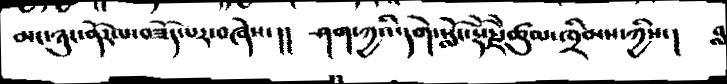མང་ཉུང་ནོར་པ་བཟོད་པར་བཞེས་།།  ཤག་ཀྱའི་དགེ་སློང་རྡོ་རྗེ་ཚུལ་ཁྲིམས་ཀྱིས་།    བླ་
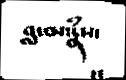བླ་མ་རྣཾས་
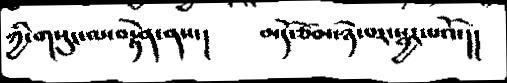ཀྱི་གསུང་ལ་བརྟེན་ནས་།    མདོ་ཙམ་ཉེ་པར་སྦྱར་པའོ་།།
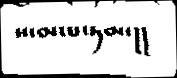ས་མ་པ་ཏམ་།།
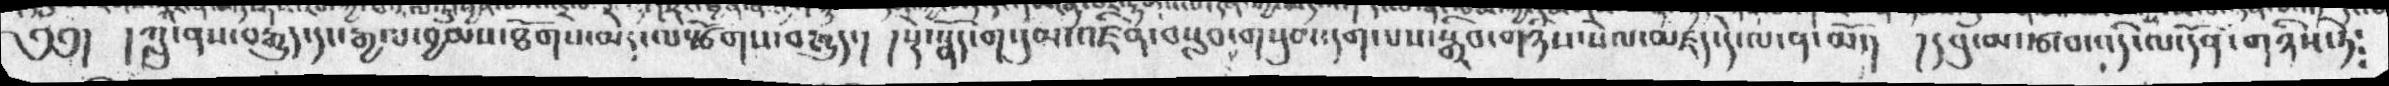༄༅།  །ཀླུ་ནས་བརྒྱུད་དང་རྒྱལ་བྱམས་ཐོགས་མེད་ལ་སྩོགས་བརྒྱུད་།  །སྡེ་སྣོད་གསུམ་འཛིན་བསླབ་གསུམ་དག་པས་སྒྲིབ་གཉིས་སེལ་མཛད་དེ་ལ་ན་མོ་།   ། དབུ་མ་རྩ་བ་འདི་ལ་དོན་གཉིས་ཏེ༴
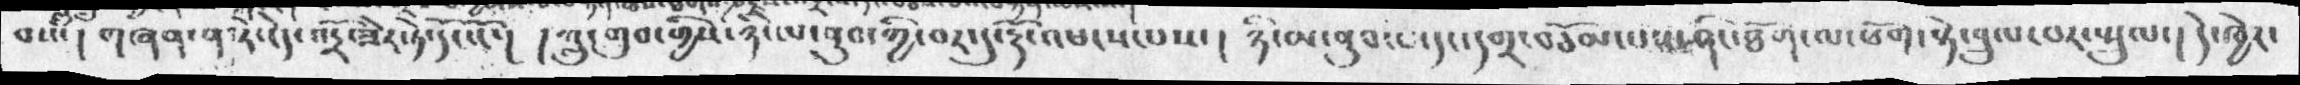བས།   གཞན་ན་རེ་ངེད་འདྲོ་ཟེར་ཏེ་དོང་ངོ་།    །ཀླུ་གྲུབ་གྱིས་ཉི་མ་ནུབ་ཀྱི་བར་དུ་རྟོ་འཕངས་པས་།  ཉི་མ་ནུབ་པ་དང་དགྲ་བཅོམ་པས་ཤིང་ཐོག་ཕོག་སྟེ་བྲུལ་པར་སྤྲུལ་།  དེ་ཁྱེར་
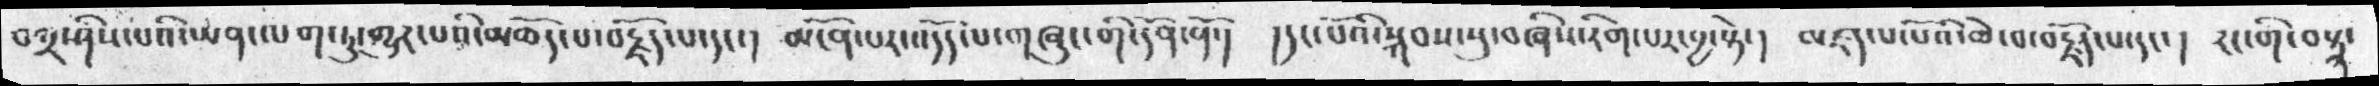བཀྲ་ཤིས་པའི་ཡན་ལག་ཏུ་གྱུར་པའི་མཆོད་པ་བརྗོད་པ་དང་།    མངོན་པར་འདོད་པ་གཞུང་གི་དོན་ནོ་།    །དང་པོའི་སྐབས་སུ་བཞིས་རིག་པར་བྱ་སྟེ་།  མཛད་པ་པོའི་ཆེ་བ་བརྗོད་པ་དང་།   རང་གི་བསྟན་
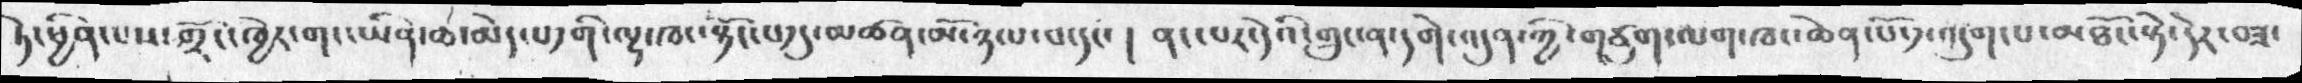ཏེ་ཕྱིན་པས་གྲོང་ཁྱེར་གང་ཡཡིན་ཆ་མེད་པ་དགི་ལྷ་ཁང་སྟོང་པ་དུ་མཚན་མོ་ཉ་པ་དང་ ། ནང་པར་དེའི་གྲུང་ན་དགེ་འདུན་ཀྱི་གཙུག་ལག་ཁང་ཆེན་པོ་ད་འདུག་པ་མཐོང་སྟེ་དེར་བཟང་
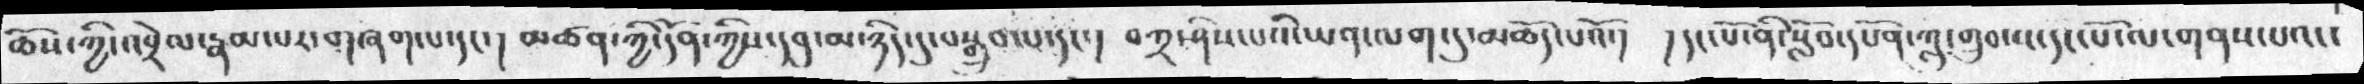ཆོས་ཀྱི་འབྲེལ་རྣམ་པར་གཞག་པ་དང། མཚན་གྱི་དོན་ཀྱིས་དབུ་མ་ཉིད་དུ་བསྒྲུབ་པ་དང་། བཀྲ་ཤིས་པའི་ཡན་ལག་དུ་མཆོད་པའོ། དང་པོ་ནི་སློབ་དཔོན་ཀླུ་གྲུབ་པ་དང་པོ་
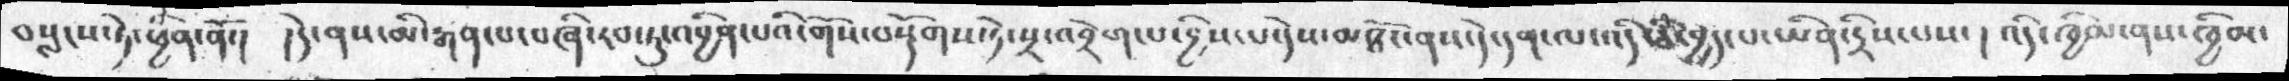བསླངས་ཏེ་ཕྱིན་ནོ། དེར་ནས་མི་རྒན་པ་བཞི་རབ་ཏུ་འབྱིན་པའི་གོས་བསྟོགས་ཏེ་སྲ་འབྲེག་པ་བྱིས་པ་དེས་མཐོང་ནས་དེ་དག་ལ་འདི་མི་བྱེད་པ་ཡིན་དྲིས་པས། འདི་ཁྱིམ་ནས་ཁྱིམ་
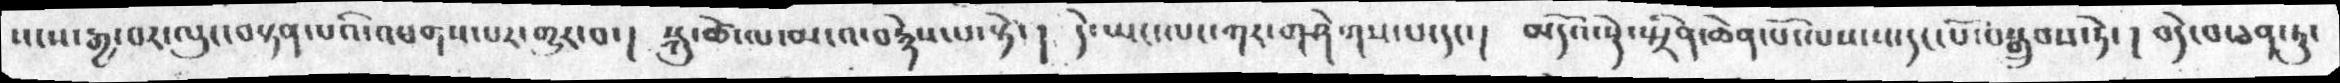སངས་རྒྱ་བར་ལུང་བསྟན་པའི་འཕགས་པར་གྱུར་པ། སྐུ་ཚེ་ལ་མངའ་བརྙེས་པ་སྟེ། དེ་ཡང་ལང་ཀར་གཤེགས་པ་དང། མདོ་སྟེ་སྤྲིན་ཆེན་པོ་ལས་ས་དང་པོ་བསྒྲུབས་ཏེ། བདེ་བ་ཅན་ཏུ་
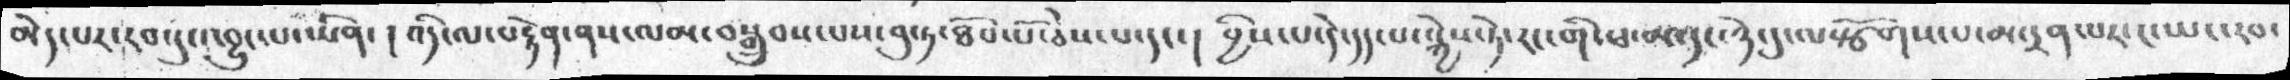མེད་པར་རབ་ཏུ་འབྱུང་བ་ཡིན། འདི་ལ་བསྟེན་ནས་ལམ་བསྒྲུབས་པས་བུ་ཏ་ཐོབ་པོ་ཅེས་པ་དང་། བྱིས་པ་དེ་དད་པ་སྐྱེས་ཏེ་རང་གི་ཕ་མ་དང་ཉེ་དུ་ལས་སྩོགས་པ་མ་དྲན་པར་ང་ཡང་རབ་
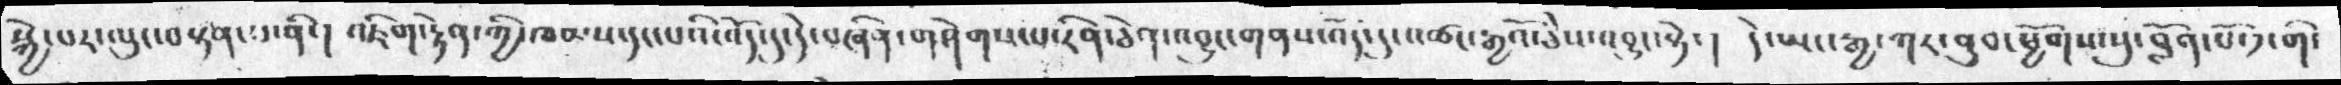སྐྱེ་པར་ལུང་བསྟན་པ་ནི་།  འཇིག་རྟེན་ཀྱི་ཁམས་དང་པའི་འོད་དུ་དེ་བཞིན་གཤེགས་པ་རིན་ཅེན་འབྱུང་གནས་འོད་དུ་འཚང་རྒྱའོ་ཅེས་འབྱུང་སྟེ་ །  དེ་ཡང་རྒྱ་གར་ནུབ་ཕྱོགས་སུ་བློན་པོ་༡་གི་
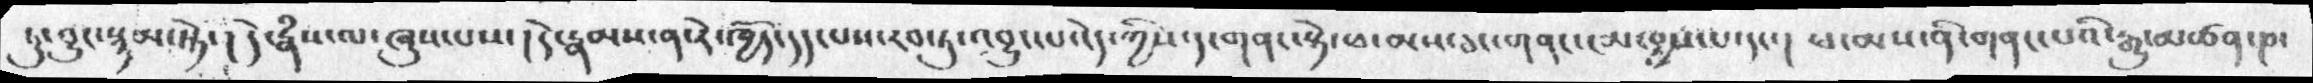ཏུ་བྱུང་སྙམ་སྟེ་ ། དེ་རྣཾས་ལ་ཞུས་པས་ ། དེ་རྣམས་ན་རེ་ཁྱོད་དད་པས་རབ་ཏུ་འབྱུང་པཔ་ངེད་ཀྱིས་ད་གནང་སྟེ་ཕ་མས་ཅང་གནང་ངམ་བྱས་པ་དང་ ། ཕ་མས་ནི་གནང་པའི་རྒྱུ་མཚན་ཎ་
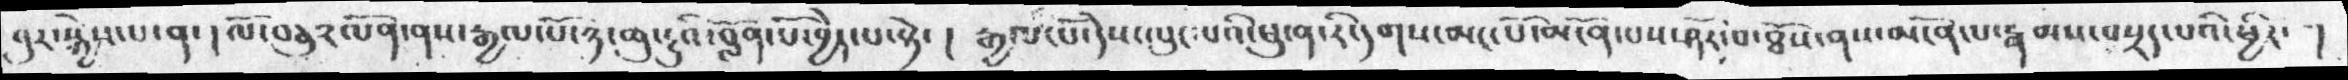འུར་སྐྱེས་པ་ན། ལོ་བཅུར་ལོན་ནས་རྒྱལ་པོ་ཉ་ཆུ་རྒྱུའི་བློན་བྱེད་པ་སྟེ་ ། རྒྱལ་པོ་དེས་དཔུང་པའི་ཕུ་ན་རི་དགས་མང་པོ་མངོན་པས་ཤོར་བ་ཐོས་ནས་མངོན་པ་རྣམས་བསྲད་པའི་ཕྱིར་  །
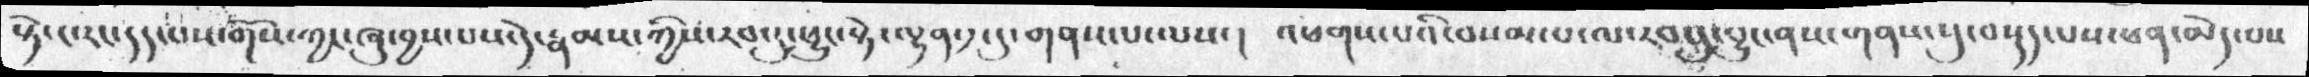སྟེ་ང་རང་དད་པས་གོས་ཀྱང་ཞུ་བྱས་པས་དེ་རྣམས་ཀྱིས་རབ་ཏུ་ཕྱུང་སྟེ་ལྷན་ཏུ་གནས་པ་ལས། འཕགས་པའི་བསམ་པ་རབ་ཏུ་བྱུང་ནས་གནསུ་བསྟོད་པས་ཕན་མེད་པས་
